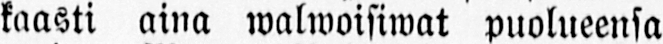kaasti aina walwoisiwat puolueensa
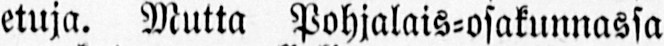etuja. Mutta Pohjalais-osakunnassa
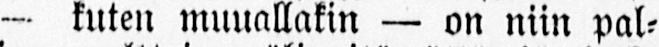— kuten muuallakin — on niin pal-
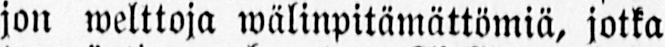jon welttoja wälinpitämättömiä, jotka
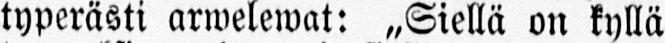typerästi arwelewat: ˶Siellä on kyllä
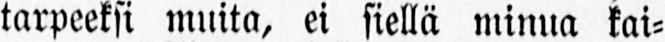tarpeeksi muita, ei siellä minua kai-
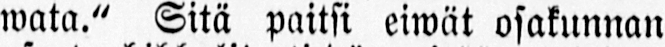wata." Sitä paitsi eiwät osakunnan
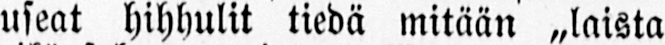useat hihhulit tiedä mitään ˶laista
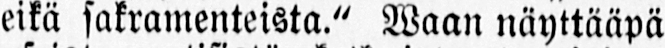eikä sakramenteista." Waan näyttääpä
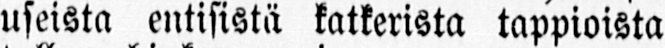useista entisistä katkerista tappioista
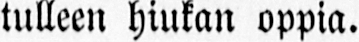tulleen hiukan oppia.
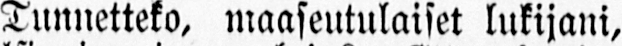Tunnetteko, maaseutulaiset lukijani,
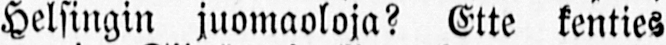Helsingin juomaoloja? Ette kenties
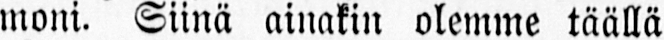moni. Siinä ainakin olemme täällä
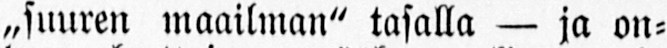˶suuren maailman" tasalla — ja on-
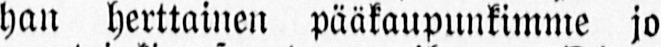han herttainen pääkaupunkimme jo
